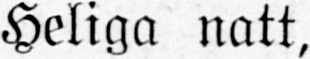Heliga natt,
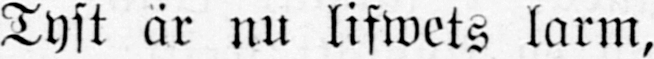Tyst är nu lifwets larm,
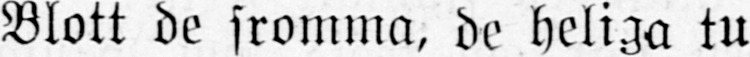Blott de fromma, de heliga tu
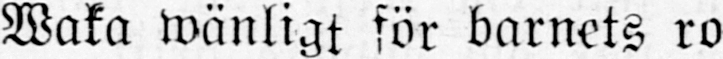Waka wänligt för barnets ro
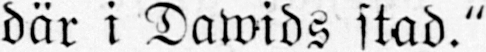där i Dawids stad."
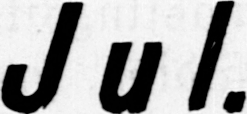Jul.
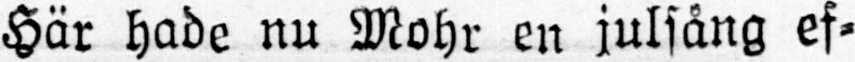Här hade nu Mohr en julsång ef-
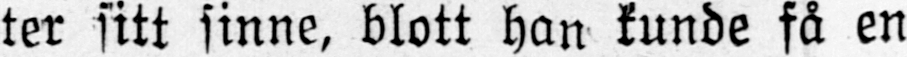ter sitt sinne, blott han kunde få en
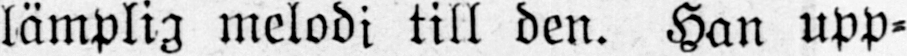lämplig melodi till den. Han upp-
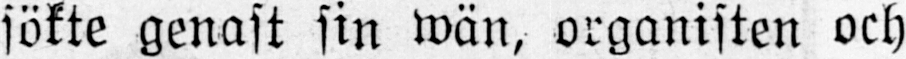sökte genast sin wän, organisten och
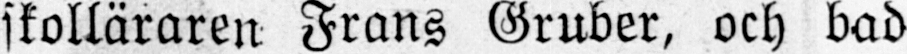skolläraren Frans Gruber, och bad
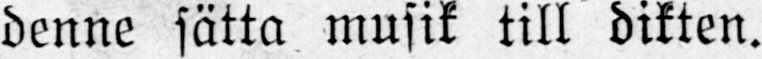denne sätta musik till dikten.
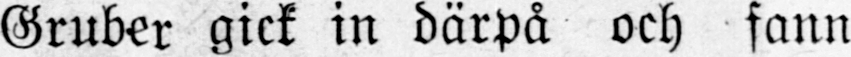Gruber gick in därpå och fann
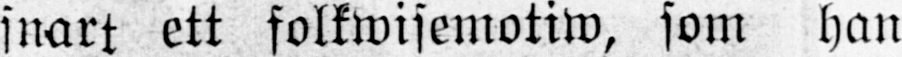snart ett folkwisemotiw, som han
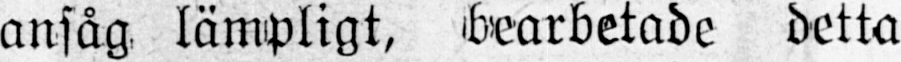ansåg lämpligt, bearbetade detta
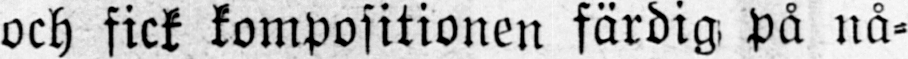och fick kompositionen färdig på nå-
